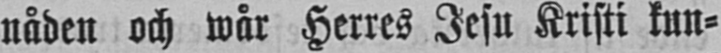nåden och wår Herres Jesu Kristi kun-
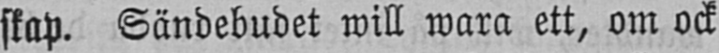skap. Sändebudet will wara ett, om ock
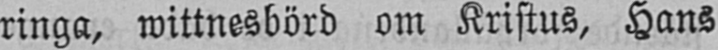ringa, wittnesbörd om Kristus, Hans
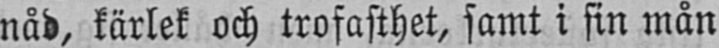nåd, kärlek och trofasthet, samt i sin mån
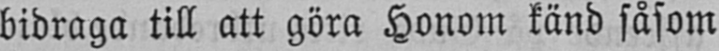bidraga till att göra Honom känd såsom
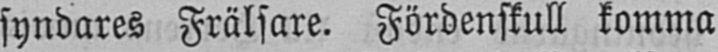syndares Frälsare. Fördenskull komma
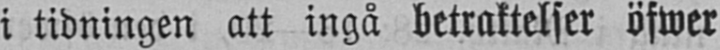i tidningen att ingå betraktelser öfwer
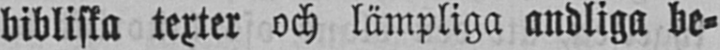bibliska texter och lämpliga andliga be-
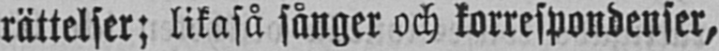rättelser; likaså sånger och korrespondenser,
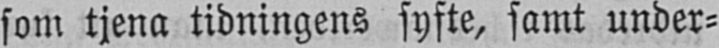som tjena tidningens syfte, samt under-
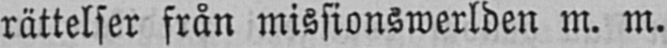rättelser från missionswerlden m. m.
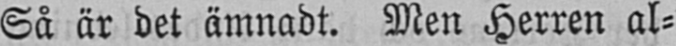Så är det ämnadt. Men Herren al-
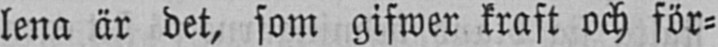lena är det, som gifwer kraft och för-
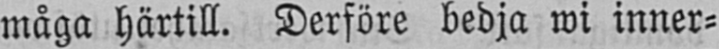måga härtill. Derföre bedja wi inner-
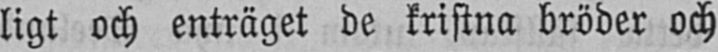ligt och enträget de kristna bröder och
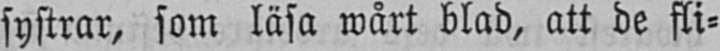systrar, som läsa wårt blad, att de fli-
